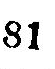81
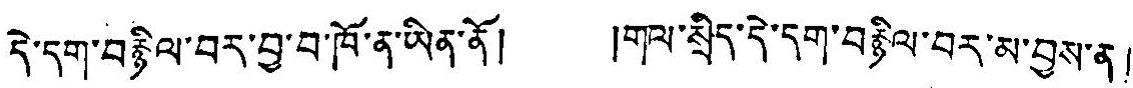དེ་དག་བརྙིལ་བར་བྱ་བ་ཁོ་ན་ཡིན་ནོ། །གལ་སྲིད་དེ་དག་བརྙིལ་བར་མ་བྱས་ན།
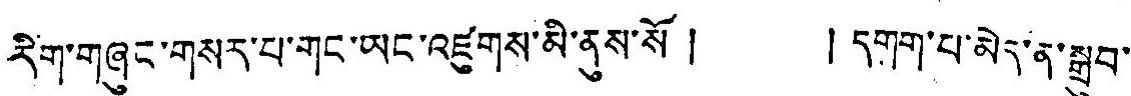རིག་གཞུང་གསར་པ་གང་ཡང་འཛུགས་མི་ནུས་སོ ། །དགག་པ་མེད་ན་སྒྲུབ་
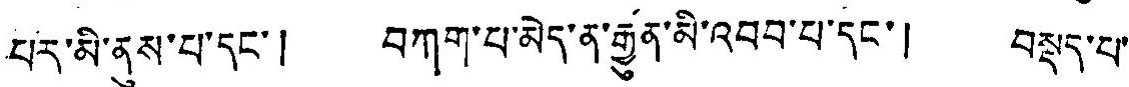པར་མི་ནུས་པ་དང་། བཀག་པ་མེད་ན་རྒྱུན་མི་འབབ་པ་དང་། བསྡད་པ་
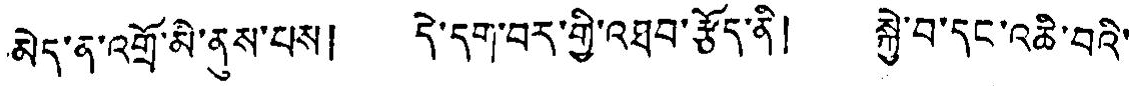མེད་ན་འགྲོ་མི་ནུས་པས། དེ་དག་བར་གྱི་འཐབ་རྩོད་ནི། སྐྱེ་བ་དང་འཆི་བའི་
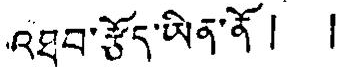འཐབ་རྩོད་ཡིན་ནོ ། །
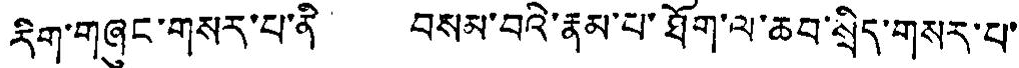རིག་གཞུང་གསར་པ་ནི བསམ་བའི་རྣམ་པ་ཐོག་ལ་ཆབ་སྲིད་གསར་པ་
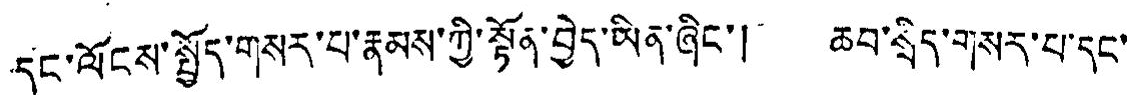དང་ལོངས་སྤྱོད་གསར་པ་རྣམས་ཀྱི་སྟོན་བྱེད་ཡིན་ཞིང་། ཆབ་སྲིད་གསར་པ་དང་།
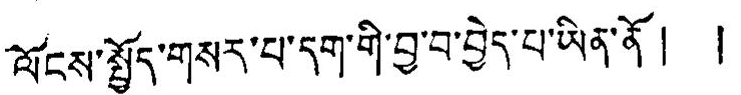ལོངས་སྤྱོད་གསར་པ་དག་གི་བྱ་བ་བྱེད་པ་ཡིན་ནོ། །
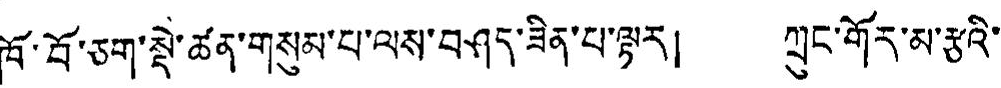ཁོ་བོ་ཅག་སྟེ་ཚན་གསུམ་པ་ལས་བཤད་ཟིན་པ་ལྟར། ཀྲུང་གོར་མ་རྩའི་
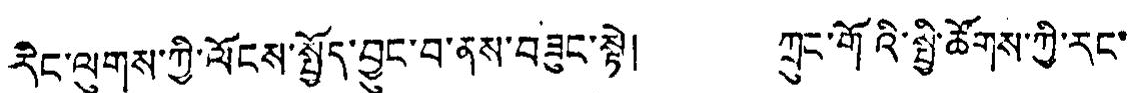རིང་ལུགས་ཀྱི་ལོངས་སྤྱོད་བྱུང་བ་ནས་བཟུང་སྟེ། ཀྲུང་གོའི་སྤྱི་ཚོགས་ཀྱི་རང་
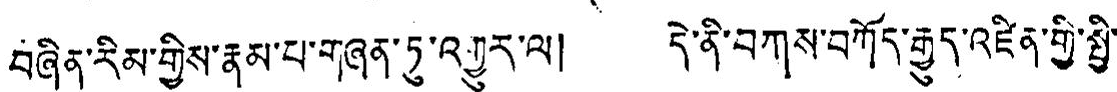བཞིན་རིམ་གྱིས་རྣམ་པ་གཞན་ཏུ་འགྱུར་ལ། དེ་ནི་བཀས་བཀོད་རྒྱུད་འཛིན་གྱི་སྤྱི་
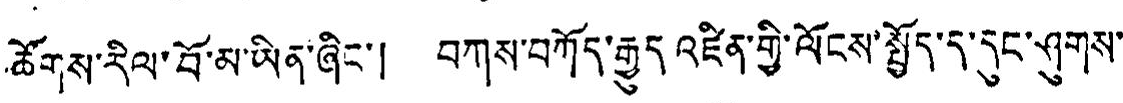ཚོགས་རིལ་བོ་མ་ཡིན་ཞིང་། བཀས་བཀོད་རྒྱུད འཛིན་གྱི་ལོངས་སྤྱོད་ད་དུང་ཤུགས་
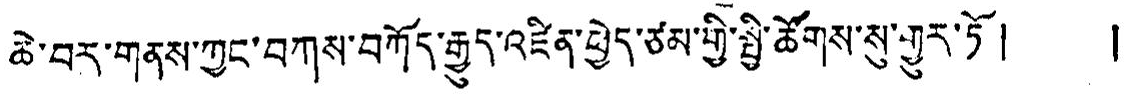ཆེ་བར་གནས་ཀྱང་བཀས་བཀོད་རྒྱུད་འཛིན་ཕྱེད་ཙམ་གྱི་སྤྱི་ཚོགས་སུ་གྱུར་ཏོ། །
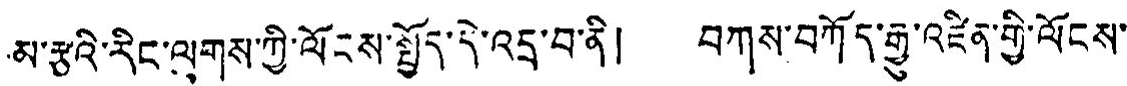མ་རྩའི་རིང་ལུགས་ཀྱི་ལོངས་སྤྱོད་དེ་འདྲ་བ་ནི། བཀས་བཀོད་རྒྱུ་འཛིན་གྱི་ལོངས་
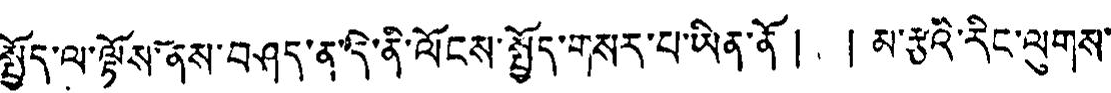སྤྱོད་ལ་ལྟོས་ནས་བཤད་ན་དེ་ནི་ལོངས་སྤྱོད་གསར་པ་ཡིན་ནོ ། ། མ་རྩའི་རིང་ལུགས་
